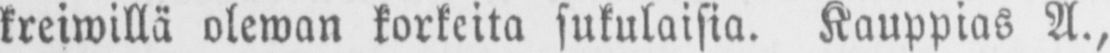kreiwillä olewan korkeita sukulaisia. Kauppias A.,
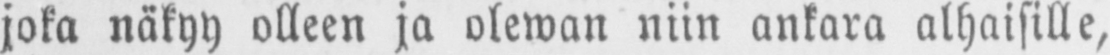joka näkyy olleen ja olewan niin ankara alhaisille,
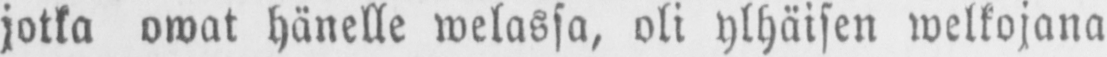jotka owat hänelle welassa, oli ylhäisen welkojana
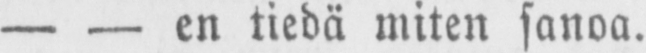— — en tiedä miten sanoa.
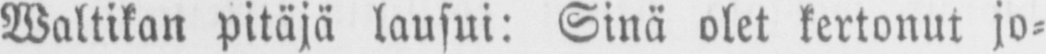Waltikan pitäjä lausui: Sinä olet kertonut jo-
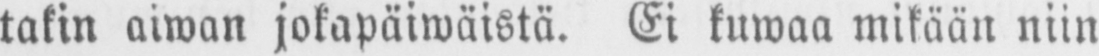takin aiwan jokapäiwäistä. Ei kuwaa mikään niin
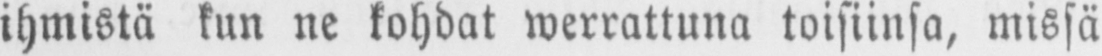ihmistä kun ne kohdat werrattuna toisiinsa, missä
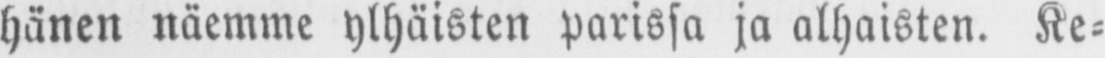hänen näemme ylhäisten parissa ja alhaisten. Ke-
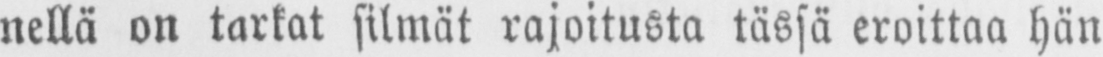nellä on tarkat silmät rajoitusta tässä eroittaa hän
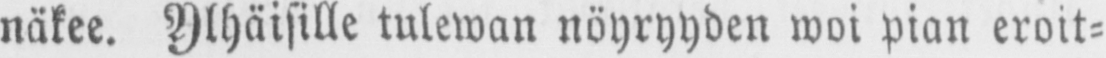näkee. Ylhäisille tulewan nöyryyden woi pian eroit-
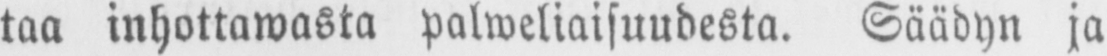taa inhottawasta palweliaisuudesta. Säädyn ja
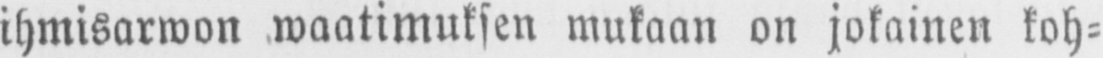ihmisarwon waatimuksen mukaan on jokainen koh-
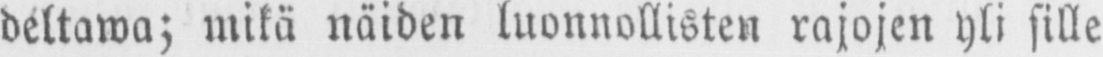deltawa; mikä näiden luonnollisten rajojen yli sille
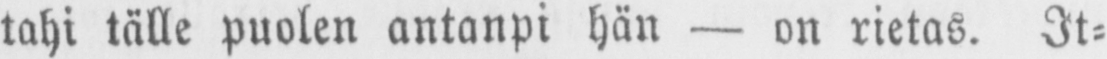tahi tälle puolen antanpi hän — on rietas. It-
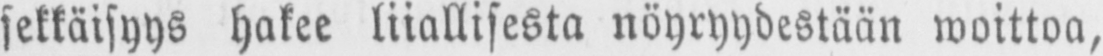sekkäisyys hakee liiallisesta nöyryydestään woittoa,
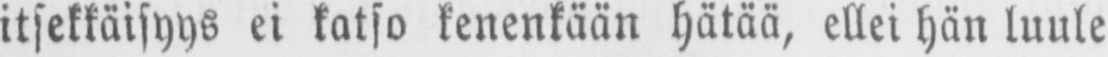itsekkäisyys ei katso kenenkään hätää, ellei hän luule
